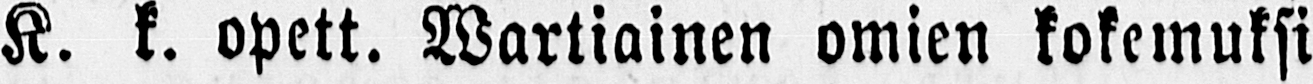K. k. opett. Wartiainen omien kokemuksi-
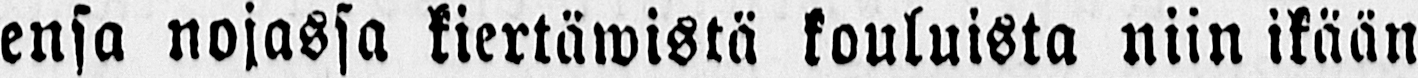ensa nojassa kiertäwistä kouluista niin ikään
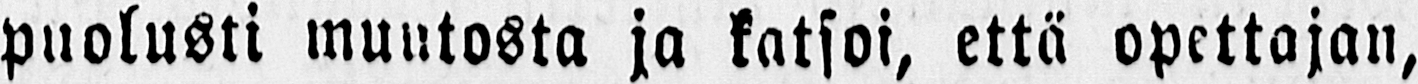puolusti muutosta ja katsoi, että opettajaa,
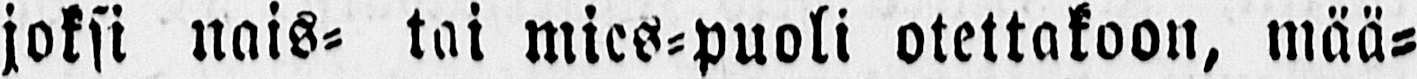joksi nais- tai mies-puoli otettakoon, mää-
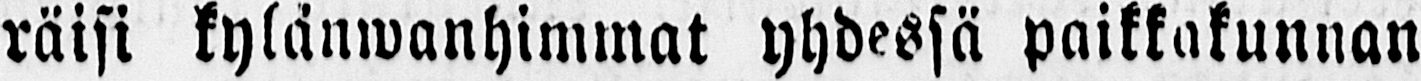räisi kylänwanhimmat yhdessä paikkakunnan
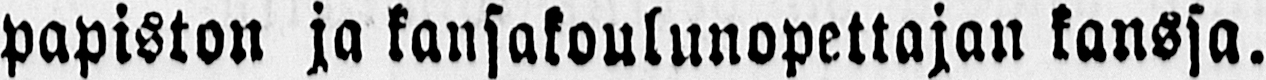papiston ja kansakoulunopettajan kanssa.
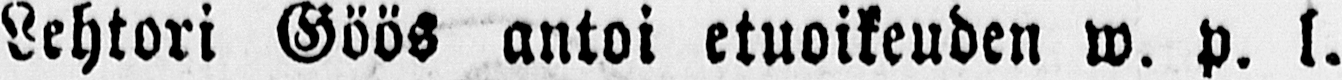Lehtori Göös antoi etuoikeuden w. p. l.
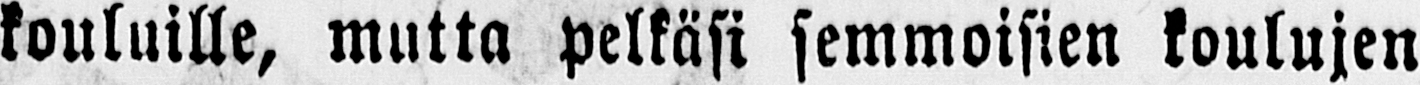kouluille, mutta pelkäsi semmoisien koulujen
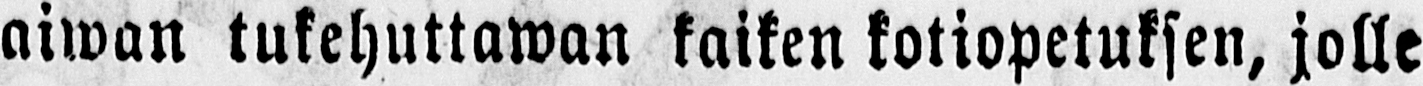aiwan tukehuttawan kaiken kotiopetuksen, jolle
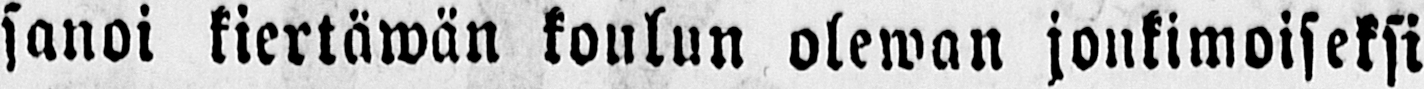sanoi kiertäwän koulun olewan jonkimoiseksi
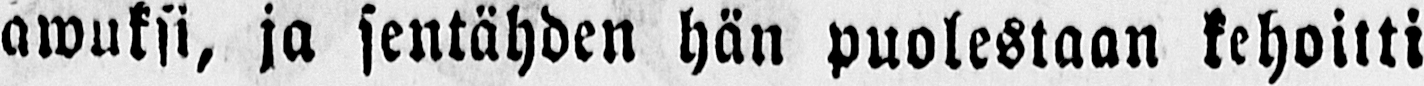awuksi, ja sentähden hän puolestaan kehoitti
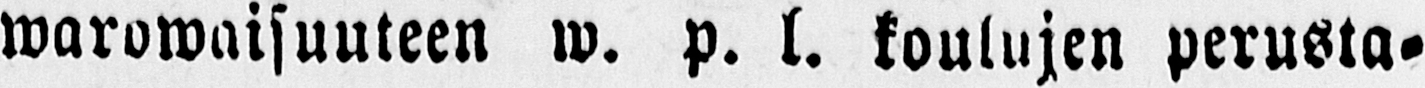warowaisuuteen w. p. l. koulujen perusta-
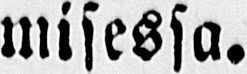misessa.
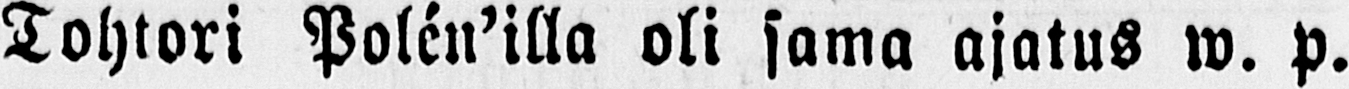Tohtori Polen’illa oli sama ajatus w. p.
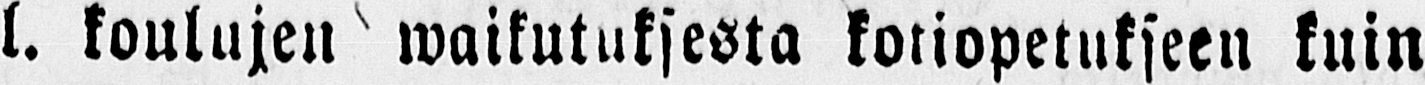l. koulujen waikutuksesta kotiopetukseen kuin
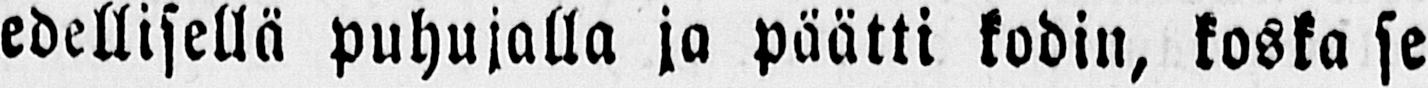edellisellä puhujalla ja päätti kodin, koska se
